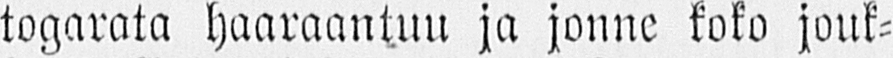togarata haaraantuu ja jonne koko jouk-
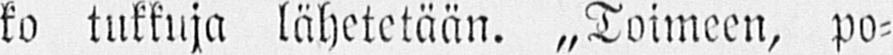ko tukkuja lähetetään. „Toimeen, po-
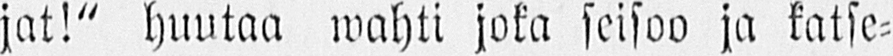jat!" huutaa wahti joka seisoo ja katse-
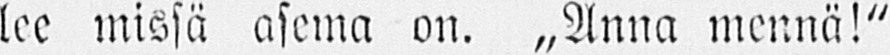lee missä asema on. „Anna mennä!"
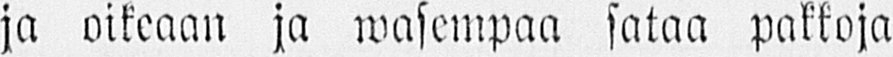ja oikeaan ja wasempaa sataa pakkoja
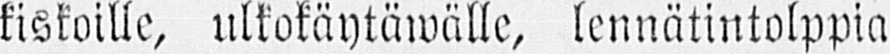kiskoille, ulkokäytämälle, lennätintolppia
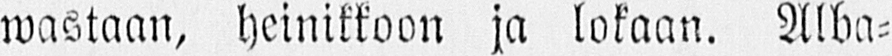wastaan, heinikkoon ja lokaan. Alba-
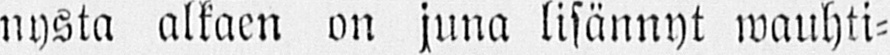nysta alkaen on juna lisännyt wauhti-
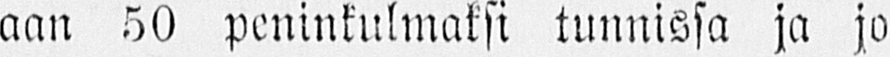aan 50 peninkulmaksi tunnissa ja jo
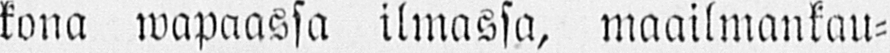kana wapaassa ilmassa, maailmankau-
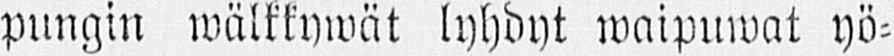pungin wälkkywät lyhdyt waipuwat yö-
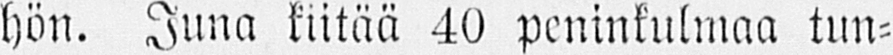hön. Juna kiitää 40 peninkulmaa tun-
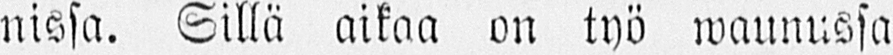nissa. Sillä aikaa on työ waunussa
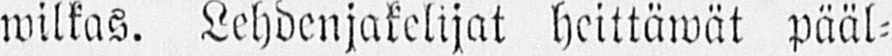wilkas. Lehdenjakelijat heittäwät pääl-
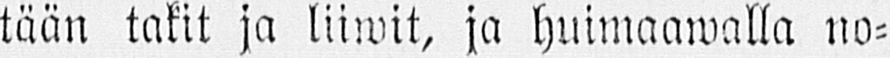tään takit ja liiwit, ja huimaawalla no-
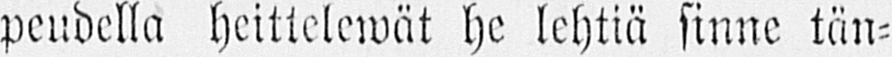peudella heittelemät he lehtiä sinne tän-
